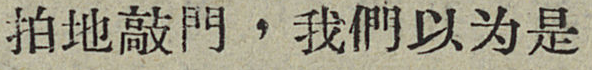拍地敲門，我們以为是
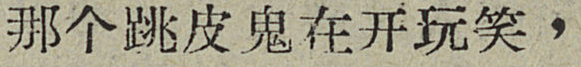那个跳皮鬼在开玩笑，
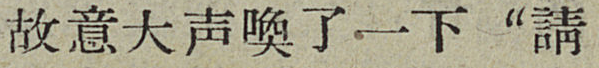故意大声喚了一下“請
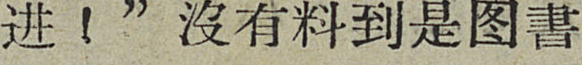进！”沒有料到是图書
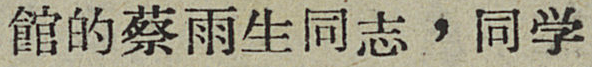館的蔡雨生同志，同学
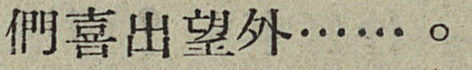們喜出望外……。
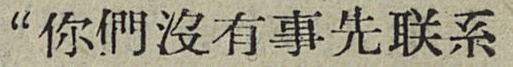“你們沒有事先联系
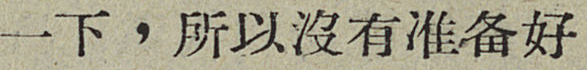一下，所以沒有准备好
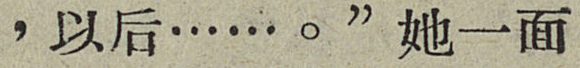，以后……。”她一面
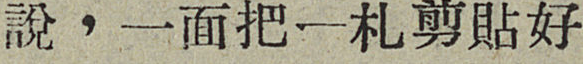說，一面把一札剪貼好
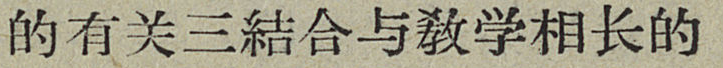的有关三結合與敎学相长的
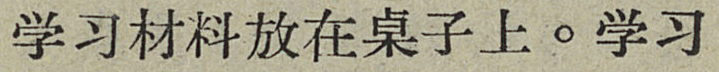学习材料放在桌子上。学习
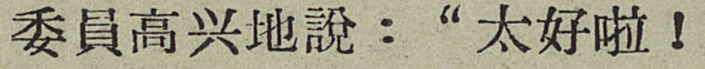委員高兴地說：“太好啦！
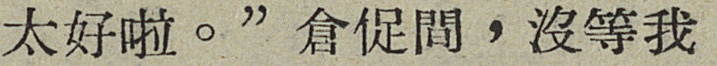太好啦。”倉促間，沒等我
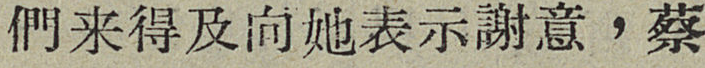們来得及向她表示謝意，蔡
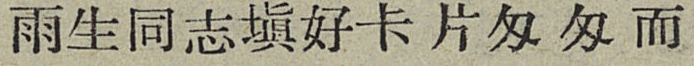雨生同志塡好卡片匆匆而
